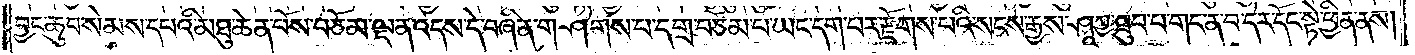བྱང་ཆུབ་སེམས་དཔའི་མཐུ་ཆེན་པོས་བཅོམ་ལྡན་འདས་དེ་བཞིན་གཤེགས་པ་དགྲ་བཅོམ་པ་ཡང་དག་པར་རྫོགས་པའི་སངས་རྒྱས་ཤཱཀྱ་ཐུབ་པ་གང་ན་བ་དེར་དོང་སྟེ་ཕྱིན་ནས།
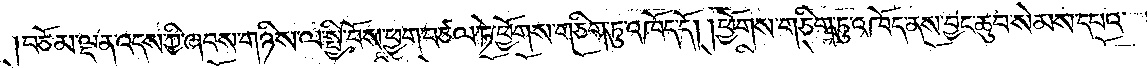བཅོམ་ལྡན་འདས་ཀྱི་ཞབས་གཉིས་ལ་སྤྱི་བོས་ཕྱག་བཙལ་ཏེ་ཕྱོགས་གཅིག་ཏུ་འཁོད་དོ། །ཕྱོགས་གཅིག་ཏུ་འཁོད་ནས་བྱང་ཆུབ་སེམས་དཔའ་
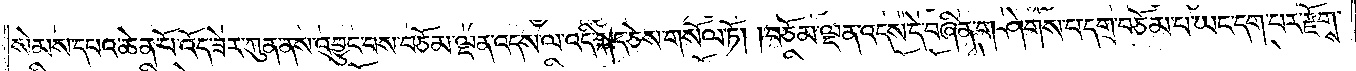སེམས་དཔའ་ཆེན་པོ་འོད་ཟེར་ཀུན་ནས་འབྱུང་བས་བཅོམ་ལྡན་འདས་ལ་འདི་སྐད་ཅེས་གསོལ་ཏོ། །བཅོམ་ལྡན་འདས་དེ་བཞིན་གཤེགས་པ་དགྲ་བཅོམ་པ་ཡང་དག་པར་རྫོགས་
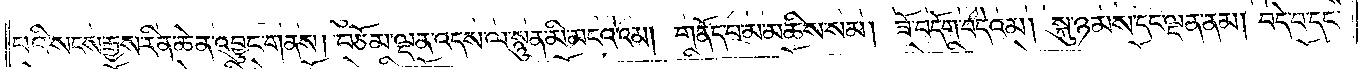པའི་སངས་རྒྱས་རིན་ཆེན་འབྱུང་གནས། བཅོམ་ལྡན་འདས་ལ་སྙུན་མི་མངའ་འམ། གནོད་པ་མ་མཆིས་སམ། ཟོ་བདོག་བདེའམ། སྐུ་ཉམས་དང་ལྡན་ནམ། བདེ་བ་དང་
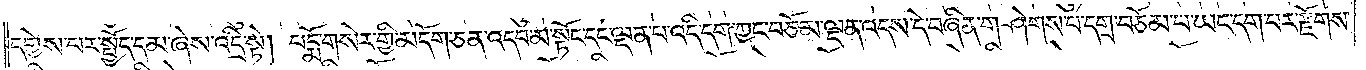དགྱེས་པར་སྤྱོད་དམ་ཞེས་འདྲི་སྟེ། པདྨོ་གསེར་གྱི་མདོག་ཅན་འདབ་མ་སྟོང་དང་ལྡན་པ་འདི་དག་ཀྱང་བཅོམ་ལྡན་འདས་དེ་བཞིན་གཤེགས་པ་དགྲ་བཅོམ་པ་ཡང་དག་པར་རྫོགས་
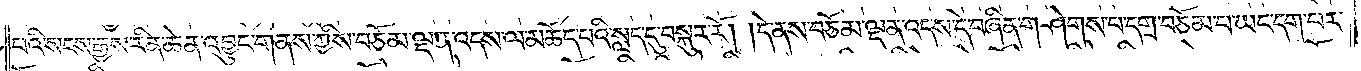པའི་སངས་རྒྱས་རིན་ཆེན་འབྱུང་གནས་ཀྱིས་བཅོམ་ལྡན་འདས་ལ་མཆོད་པའི་སླད་དུ་བསྐུར་རོ། །དེ་ནས་བཅོམ་ལྡན་འདས་དེ་བཞིན་གཤེགས་པ་དགྲ་བཅོམ་པ་ཡང་དག་པར་
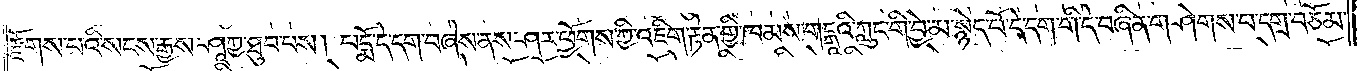རྫོགས་པའི་སངས་རྒྱས་ཤཱཀྱ་ཐུབ་པས། པདྨོ་དེ་དག་བཞེས་ནས་ཤར་ཕྱོགས་ཀྱི་འཇིག་རྟེན་གྱི་ཁམས་གངྒཱའི་ཀླུང་གི་བྱེ་མ་སྙེད་པོ་དེ་དག་གི་དེ་བཞིན་གཤེགས་པ་དགྲ་བཅོམ་
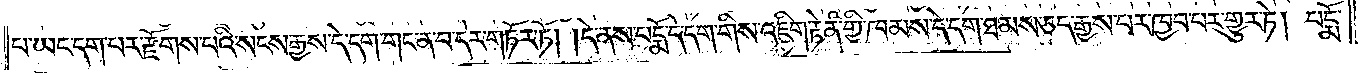པ་ཡང་དག་པར་རྫོགས་པའི་སངས་རྒྱས་དེ་དག་གང་ན་བ་དེར་གཏོར་ཏོ། །དེ་ནས་པདྨོ་དེ་དག་གིས་འཇིག་རྟེན་གྱི་ཁམས་དེ་དག་ཐམས་ཅད་རྒྱས་པར་ཁྱབ་པར་གྱུར་ཏེ། པདྨོ་
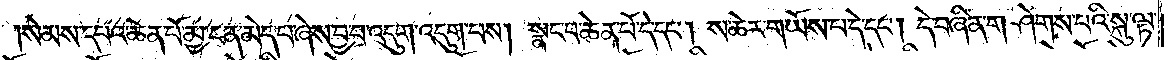སེམས་དཔའ་ཆེན་པོ་མྱ་ངན་མེད་པ་ཞེས་བྱ་བ་འདུག་འདུག་པས། སྣང་བ་ཆེན་པོ་དེ་དང༌། ས་ཆེར་གཡོས་པ་དེ་དང༌། དེ་བཞིན་གཤེགས་པའི་སྐུ་ལྟ་
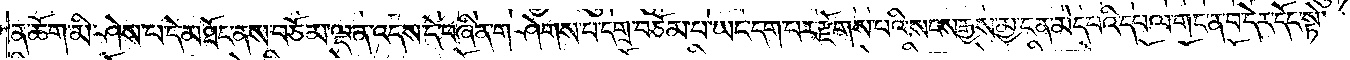ན་ཆོག་མི་ཤེས་པ་དེ་མཐོང་ནས་བཅོམ་ལྡན་འདས་དེ་བཞིན་གཤེགས་པ་དགྲ་བཅོམ་པ་ཡང་དག་པར་རྫོགས་པའི་སངས་རྒྱས་མྱ་ངན་མེད་པའི་དཔལ་གང་ན་བ་དེར་དོང་སྟེ་
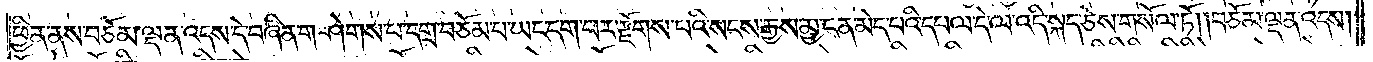ཕྱིན་ནས་བཅོམ་ལྡན་འདས་དེ་བཞིན་གཤེགས་པ་དགྲ་བཅོམ་པ་ཡང་དག་པར་རྫོགས་པའི་སངས་རྒྱས་མྱ་ངན་མེད་པའི་དཔལ་དེ་ལ་འདི་སྐད་ཅེས་གསོལ་ཏོ། །བཅོམ་ལྡན་འདས།
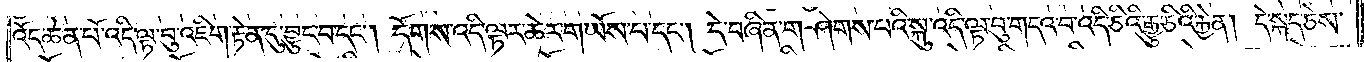འོད་ཆེན་པོ་འདི་ལྟ་བུ་འཇིག་རྟེན་དུ་བྱུང་བ་དང༌། དོག་ས་འདི་ལྟར་ཆེར་གཡོས་པ་དང༌། དེ་བཞིན་གཤེགས་པའི་སྐུ་འདི་ལྟ་བུ་གདའ་བ་འདི་ཅིའི་རྒྱུ་ཅིའི་རྐྱེན། དེ་སྐད་ཅེས་
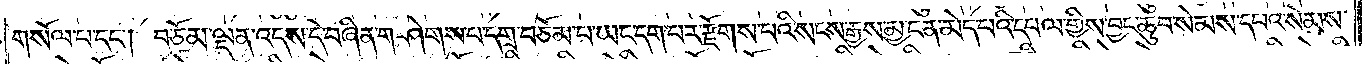གསོལ་པ་དང༌། བཅོམ་ལྡན་འདས་དེ་བཞིན་གཤེགས་པ་དགྲ་བཅོམ་པ་ཡང་དག་པར་རྫོགས་པའི་སངས་རྒྱས་མྱ་ངན་མེད་པའི་དཔལ་གྱིས་བྱང་ཆུབ་སེམས་དཔའ་སེམས་
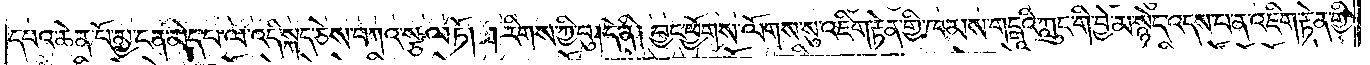དཔའ་ཆེན་པོ་མྱ་ངན་མེད་པ་ལ་འདི་སྐད་ཅེས་བཀའ་སྩལ་ཏོ། །རིགས་ཀྱི་བུ། དེ་ནི། བྱང་ཕྱོགས་ལོགས་སུ་འཇིག་རྟེན་གྱི་ཁམས་གངྒཱའི་ཀླུང་གི་བྱེ་མ་སྙེད་འདས་པ་ན་འཇིག་རྟེན་གྱི་
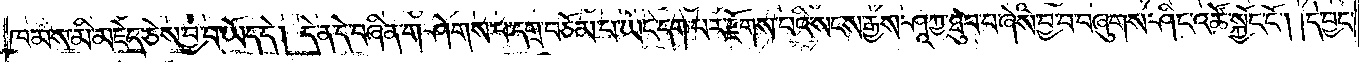ཁམས་མི་མཇེད་ཅེས་བྱ་བ་ཡོད་དེ། དེ་ན་དེ་བཞིན་གཤེགས་པ་དགྲ་བཅོམ་པ་ཡང་དག་པར་རྫོགས་པའི་སངས་རྒྱས་ཤཱཀྱ་ཐུབ་བ་ཞེས་བྱ་བ་བཞུགས་ཤིང་འཚོ་སྐྱོང་ངོ༌། །དེ་བྱང་
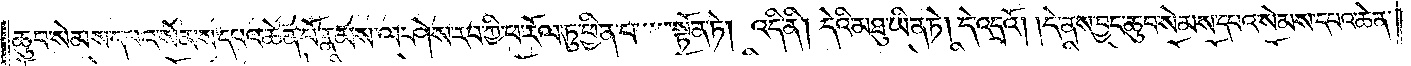ཆུབ་སེམས་དཔའ་སེམས་དཔའ་ཆེན་པོ་རྣམས་ལ་ཤེས་རབ་ཀྱི་ཕ་རོལ་ཏུ་ཕྱིན་པ་སྟོན་ཏེ། འདི་ནི། དེའི་མཐུ་ཡིན་ཏེ། དེ་འདྲའོ། །དེ་ནས་བྱང་ཆུབ་སེམས་དཔའ་སེམས་དཔའ་ཆེན་
